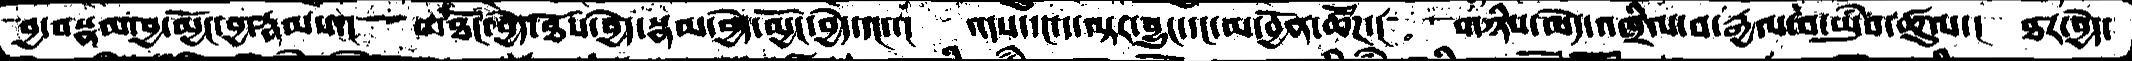བྱ་བསྣམ་བྱ་མྱོང་བྱ་རྣམས་།  མཐོང་བྱེད་ཐོས་བྱེད་སྣམ་བྱེད་མྱོང་བྱེད་དང་་།  འདས་དང་ད་ལྟར་བྱུང་དང་མ་བྱོན་ཚོཌ་།  གཉིས་མེད་འཁྲིལ་བ་རྒྱལ་བ་ཡུཾབ་ཚུལ་།  ཐར་བྱེད་
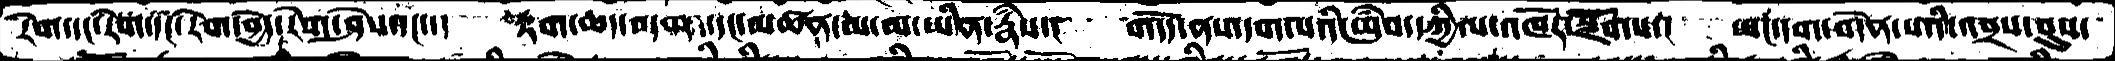རེག་དང་རེག་དང་རེག་བྱེད་རེག་ཤེས་དང་།   རྟག་ཆད་བདག་དང་མཚན་མ་མ་ཡིན་རྣཾས་།   གདོད་ནས་དག་པའི་ཡུཾབ་དཀྱིལ་འཁོར་སྫོགས་།    ཡང་དག་བདེན་པའི་འབྲས་བུས་
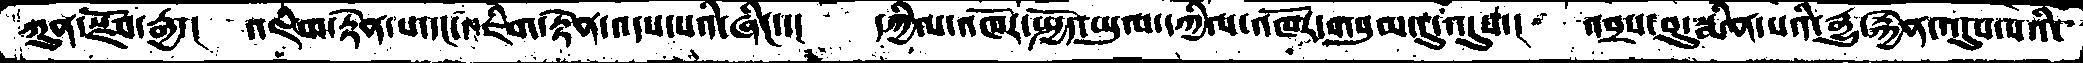ཀུན་སྫོབ་རྒྱ་།   འཇིག་རྟེན་པ་དང་འཇིག་རྟེན་འདས་པའི་ཞིང་་།    དཀྱིལ་འཁོར་སྤྱོད་ཡུལ་དཀྱིལ་འཁོར་གསུམ་དུ་འདུས་།    འབྲས་བུ་སྨིན་པའི་རྒྱུ་རྐྱེན་འདུས་པའིིིིི་
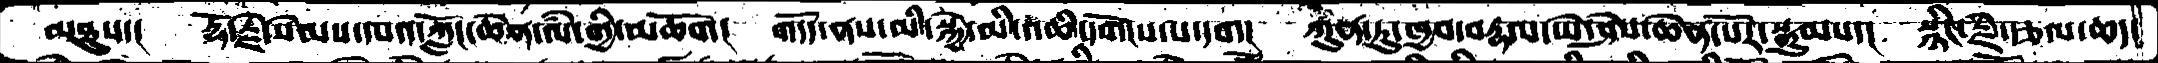མཐུས་།   རྡོ་རྗེེ་སེམས་དཔའ་ཀློང་ཆེན་ལཾ་གྱི་མཆོག།   གདོད་ནས་མི་སྐྱེ་མི་འཆི་དགོངས་པ་དག།   ཀུན་ཏུ་ཁྱབ་བརྡལ་ཡེ་ཤེས་ཆེན་པོར་སྣུམས་།   སྙིང་རྗེ་རྩལ་ཆད་
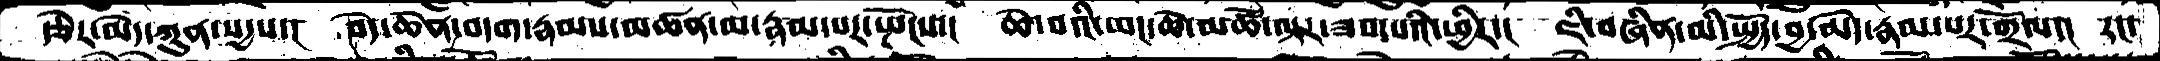་ཅེར་མེད་ཀུན་སདྱས་།   བདེ་ཆེན་བདག་རྣམས་མཚན་མ་རྣམ་པར་སྤོངས་།   ཆེ་བའི་ཡང་ཆེ་མཚོ་ལྟར་ཟབ་པའི་ཕྱིར་།   ཇི་བཞིན་མི་སྤྱོད་བྱ་མེད་རྣམ་པར་གྲོལ་།  རང་
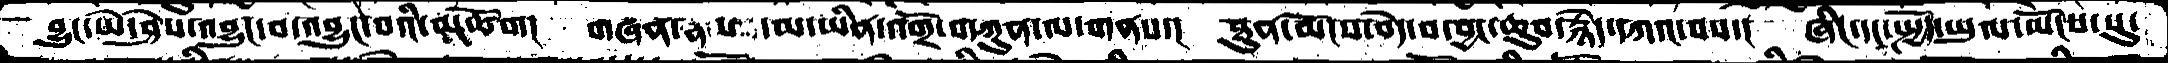བྱུང་ཡེ་ཤེས་འབྱུང་བ་འབྱུང་བའི་མཆོག།    གཞན་རྣམས་མ་ཡིན་འགྲོ་བ་་ཀུན་ལ་གནས་།   ཐུན་མོངས་བདེ་བ་བྱང་ཆུབ་རྙེད་དཀའ་བས་།    ཞིང་དང་སྤྱོད་ཡུལ་ཡོངས་སུ་
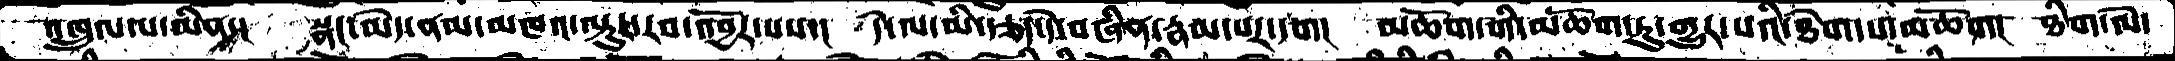འཁྲུལ་པ་མིན་།  སྣང་མེད་ནམ་མཁའ་ལྟུར་རབ་འབྱོར་པས་།  དེ་ལ་མི་རྩད་དེ་བཞིན་རྣམ་པར་དག།  མཆོག་གི་མཆོག་ཏུ་གྱུར་པའི་ཐེག་པ་མཆོག།   ཐིག་ལེ་
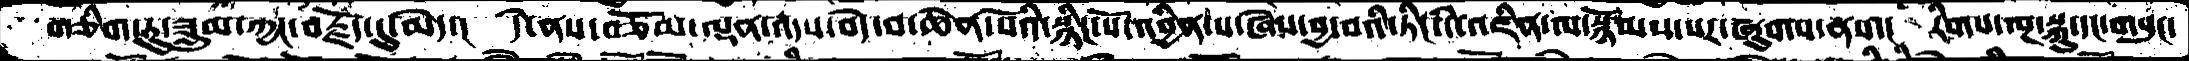གཅིག་ཏུ་ཟླུམ་ཀྱང་བརྗོད་དུ་མེད་།  དེ་ནས་བཅོམ་ལྡན་འདས་བདེ་བ་ཆེན་པོའི་སྙིང་པོ་འབྱིན་པ་ཞེས་བྱ་བའི་ཏིང་ངེ་འཛིན་ལ་སྙོམས་པར་ཞུགས་ནས་།  རིགས་ལྔ་སྐུ་དང་གསུང་
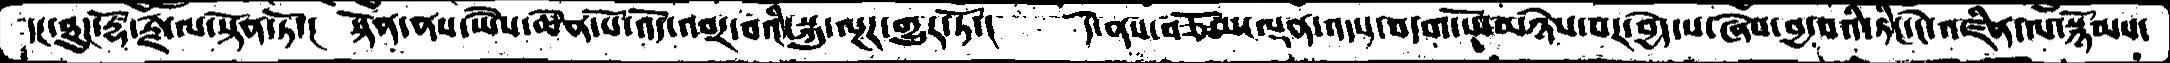དང་ཐུཌ་རྡོ་རྗེ་ལ་སྟོན་ཏོ་།  སྟོན་ནས་ཡཻས་ཆེན་པོ་འོད་འབར་བའི་སྐུ་ལྔར་གྱུར་ཏོ་།  དེ་ནས་བཅོམ་ལྡན་འདས་བདག་པོ་མཉེས་པར་བྱེད་པ་ཞེས་བྱ་བའི་ཏིང་ངེ་འཛིན་ལ་སྙོམས་
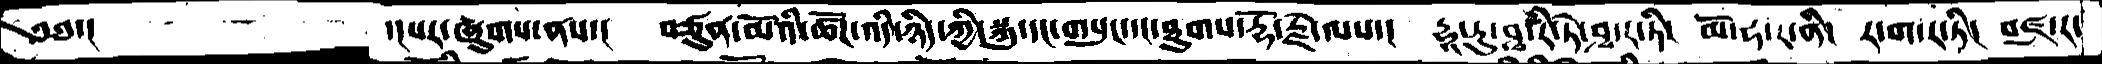༄༅་།      ་།པར་ཞུགས་ནས་།  བཙུན་མོའི་ཚོཌ་འདི་ཉིད་ཀྱི་སྐུ་དང་གསུང་དང་ཐུགས་རྡོ་རྗེ་ལས་།  དྷཱ་རུ་ཤྭ་རི་ཏེ་ཤྭ་ར་ཏི།  མོ་ཧ་ར་ནི།  ར་ག་ར་ཏི།  བཛྲ་ར་
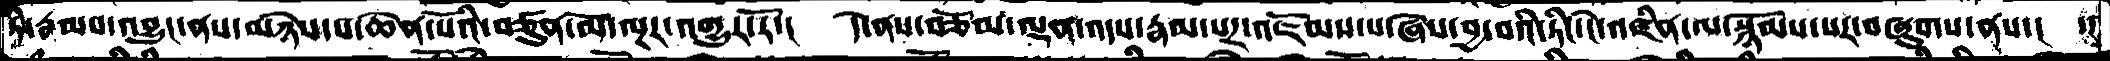ཏི་རྣམས་འབྱུང་ནས་མཉེས་པ་ཆེན་པོའི་བཙུན་མོ་ལྔར་འགྱུར་རོ་།  དེ་ནས་བཅོམ་ལྡན་འདས་རྣམ་པར་འཇོམས་པ་ཞེས་བྱ་བའི་ཏིང་ངེ་འཛིན་ལ་སྙོམས་པར་བཞུགས་ནས་།  ་།
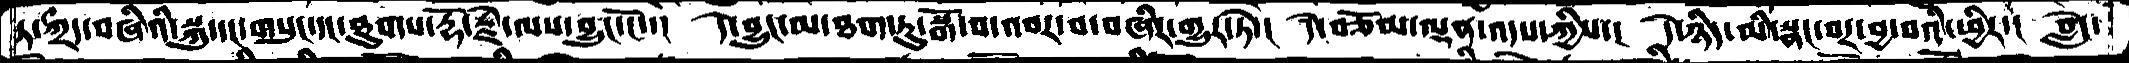ཏ་ཀྲྀད་བཞིའི་སྐུ་དང་གསུང་དང་ཐུགས་རྡོ་རྗེ་ལས་བྱུང་ངོ་་།   དེ་བྱུང་མ་ཐག་ཏུ་སྒོ་བ་འབར་བ་བཞིར་གྱུར་ཏེ་།   དེ་བཅོམ་ལྡན་འདས་ཀྱིས་།  དེ་ཉིད་མི་སྣང་བར་བྱ་བའི་ཕྱིར་།  བླེད་
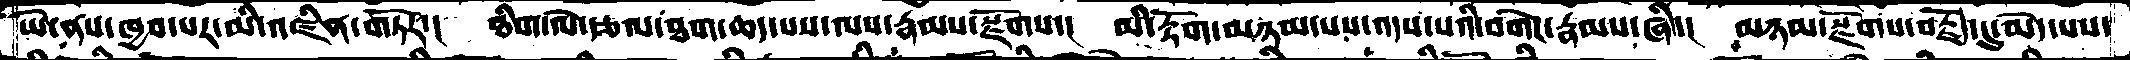ཡེ་ནས་ཁྱབ་པར་མི་འཛིན་གཏོར་།   ཐིག་ལེ་རྩལ་ཐག་ཆད་པས་ལས་རྣམས་སྫོགས་།   མི་རྟོག་མཉམ་པས་འདས་པའི་བགེཌ་རྣམས་ཞི་།  མཉམ་སྫོགས་བརྗོད་དུ་མེད་པས་
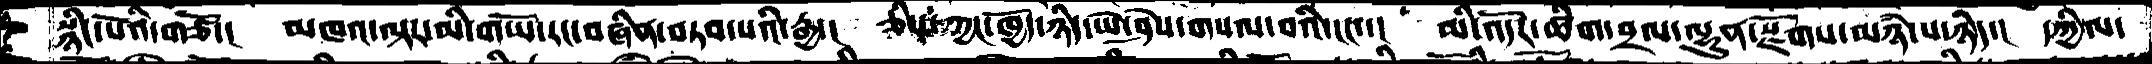སྙིང་པོའི་གཙོ་།   མཁའ་ལྟར་མི་གཡོ་རང་བཞིན་བཏབ་པའི་རྒྱ་།  ཅིས་ཀྱང་ཁྱོད་ཉིད་ཡེ་ཤེས་གསལ་བའི་ངང་་།  མི་འདོར་ཚིག་བྲལ་ལྷུན་སྫོགས་མཉཾ་པ་ཉིད་།  དཀྱིལ་
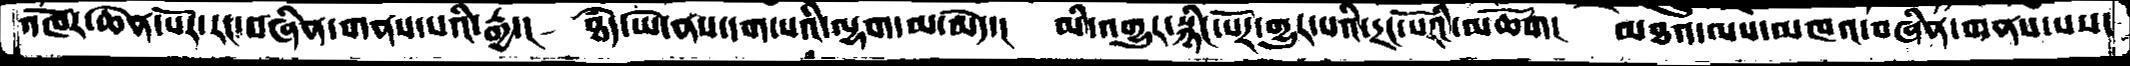འཁོར་ཆེན་པོར་རང་བཞིན་གནས་པའི་རྒྱ་།  ཐཾད་ཡེ་ནས་དག་པའི་ལྷག་མ་མེད་།  མི་འགྱུར་སྙིང་པོར་གྱུར་པའི་དྲང་པོའི་མཆོག།  མཐའ་ལས་མཁའ་བཞིན་གནས་པས་
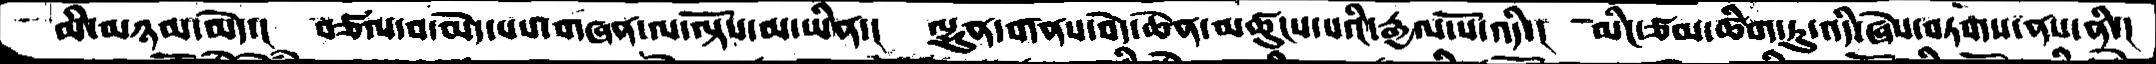མི་མཉམ་མེད་། བཙལ་བ་མེད་པས་གཞན་ལ་ལྟོས་མ་ཡིན་། ལྷུན་གནས་བདེ་ཆེན་མཚུངས་པའི་རྒྱལ་པོ་འདི་། མིང་ཙམ་ཚིག་ཏུ་འདི་ཞེས་བཏགས་ནས་ནི་།
